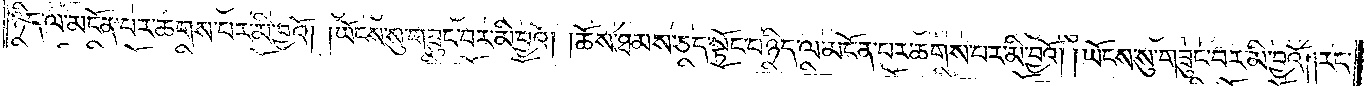ཉིད་ལ་མངོན་པར་ཆགས་པར་མི་བྱའོ། །ཡོངས་སུ་གཟུང་བར་མི་བྱའོ། །ཆོས་ཐམས་ཅད་སྟོང་པ་ཉིད་ལ་མངོན་པར་ཆགས་པར་མི་བྱའོ། །ཡོངས་སུ་གཟུང་བར་མི་བྱའོ། །རང་
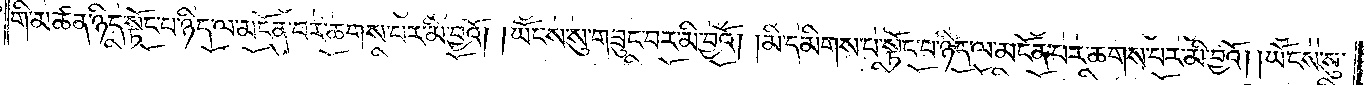གི་མཚན་ཉིད་སྟོང་པ་ཉིད་ལ་མངོན་པར་ཆགས་པར་མི་བྱའོ། །ཡོངས་སུ་གཟུང་བར་མི་བྱའོ། །མི་དམིགས་པ་སྟོང་པ་ཉིད་ལ་མངོན་པར་ཆགས་པར་མི་བྱའོ། །ཡོངས་སུ་
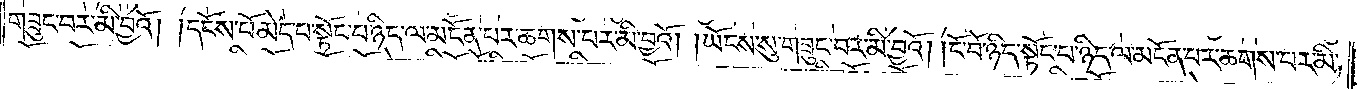གཟུང་བར་མི་བྱའོ། །དངོས་པོ་མེད་པ་སྟོང་པ་ཉིད་ལ་མངོན་པར་ཆགས་པར་མི་བྱའོ། །ཡོངས་སུ་གཟུང་བར་མི་བྱའོ། །ངོ་བོ་ཉིད་སྟོང་པ་ཉིད་ལ་མངོན་པར་ཆགས་པར་མི་
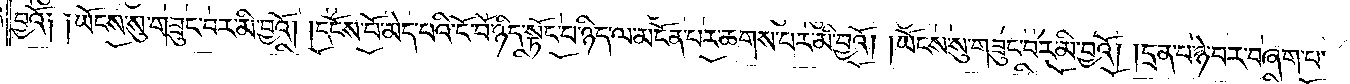བྱའོ༑ ༑ཡོངས་སུ་གཟུང་བར་མི་བྱའོ། །དངོས་པོ་མེད་པའི་ངོ་བོ་ཉིད་སྟོང་པ་ཉིད་ལ་མངོན་པར་ཆགས་པར་མི་བྱའོ། །ཡོངས་སུ་གཟུང་བར་མི་བྱའོ། །དྲན་པ་ཉེ་བར་བཞག་པ་
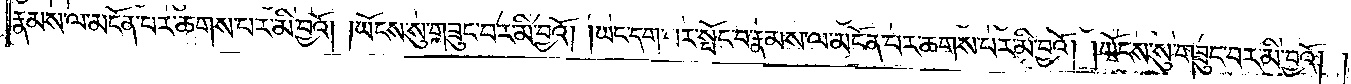རྣམས་ལ་མངོན་པར་ཆགས་པར་མི་བྱའོ། །ཡོངས་སུ་གཟུང་བར་མི་བྱའོ། །ཡང་དག་པར་སྤོང་བ་རྣམས་ལ་མངོན་པར་ཆགས་པར་མི་བྱའོ། །ཡོངས་སུ་གཟུང་བར་མི་བྱའོ། །
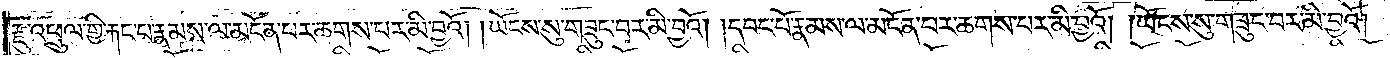རྫུ་འཕྲུལ་གྱི་རྐང་པ་རྣམས་ལ་མངོན་པར་ཆགས་པར་མི་བྱའོ། །ཡོངས་སུ་གཟུང་བར་མི་བྱའོ། །དབང་པོ་རྣམས་ལ་མངོན་པར་ཆགས་པར་མི་བྱའོ། །ཡོངས་སུ་གཟུང་བར་མི་བྱའོ། །
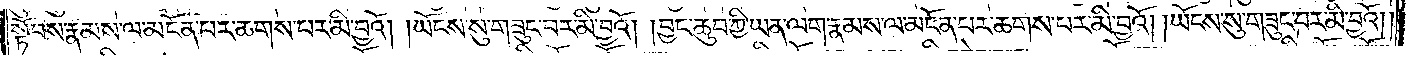སྟོབས་རྣམས་ལ་མངོན་པར་ཆགས་པར་མི་བྱའོ། །ཡོངས་སུ་གཟུང་བར་མི་བྱའོ། །བྱང་ཆུབ་ཀྱི་ཡན་ལག་རྣམས་ལ་མངོན་པར་ཆགས་པར་མི་བྱའོ། །ཡོངས་སུ་གཟུང་བར་མི་བྱའོ། །
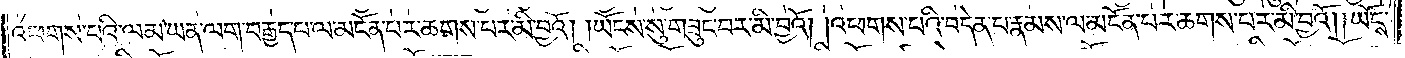འཕགས་པའི་ལམ་ཡན་ལག་བརྒྱད་པ་ལ་མངོན་པར་ཆགས་པར་མི་བྱའོ། །ཡོངས་སུ་གཟུང་བར་མི་བྱའོ། །འཕགས་པའི་བདེན་པ་རྣམས་ལ་མངོན་པར་ཆགས་པར་མི་བྱའོ། །ཡོངས་
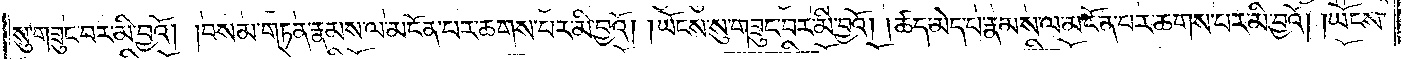སུ་གཟུང་བར་མི་བྱའོ། །བསམ་གཏན་རྣམས་ལ་མངོན་པར་ཆགས་པར་མི་བྱའོ། །ཡོངས་སུ་གཟུང་བར་མི་བྱའོ། །ཚད་མེད་པ་རྣམས་ལ་མངོན་པར་ཆགས་པར་མི་བྱའོ༎ ཡོངས་
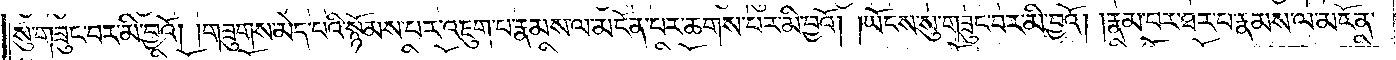སུ་གཟུང་བར་མི་བྱའོ། །གཟུགས་མེད་པའི་སྙོམས་པར་འཇུག་པ་རྣམས་ལ་མངོན་པར་ཆགས་པར་མི་བྱའོ། །ཡོངས་སུ་གཟུང་བར་མི་བྱའོ། རྣམ་པར་ཐར་པ་རྣམས་ལ་མངོན་
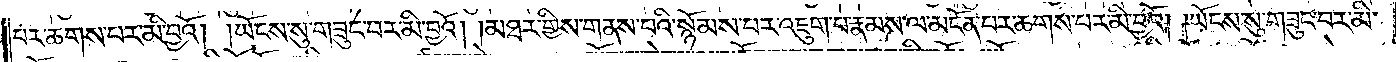པར་ཆགས་པར་མི་བྱའོ། །ཡོངས་སུ་གཟུང་བར་མི་བྱའོ། །མཐར་གྱིས་གནས་པའི་སྙོམས་པར་འཇུག་པ་རྣམས་ལ་མངོན་པར་ཆགས་པར་མི་བྱའོ། །ཡོངས་སུ་གཟུང་བར་མི་
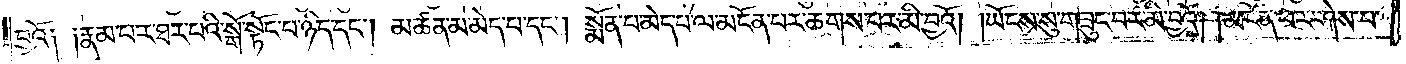བྱའོ༑ ༑རྣམ་པར་ཐར་པའི་སྒོ་སྟོང་པ་ཉིད་དང༌། མཚན་མ་མེད་པ་དང༌། སྨོན་པ་མེད་པ་ལ་མངོན་པར་ཆགས་པར་མི་བྱའོ། །ཡོངས་སུ་གཟུང་བར་མི་བྱའོ། །མངོན་པར་ཤེས་པ་
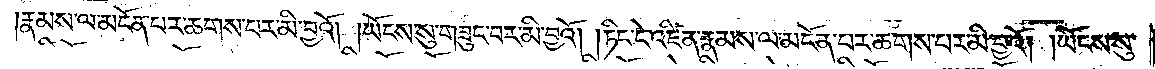རྣམས་ལ་མངོན་པར་ཆགས་པར་མི་བྱའོ། །ཡོངས་སུ་གཟུང་བར་མི་བྱའོ། །ཏིང་ངེ་འཛིན་རྣམས་ལ་མངོན་པར་ཆགས་པར་མི་བྱའོ། །ཡོངས་སུ་
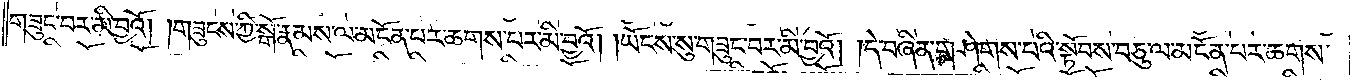གཟུང་བར་མི་བྱའོ། །གཟུངས་ཀྱི་སྒོ་རྣམས་ལ་མངོན་པར་ཆགས་པར་མི་བྱའོ། །ཡོངས་སུ་གཟུང་བར་མི་བྱའོ། །དེ་བཞིན་གཤེགས་པའི་སྟོབས་བཅུ་ལ་མངོན་པར་ཆགས་
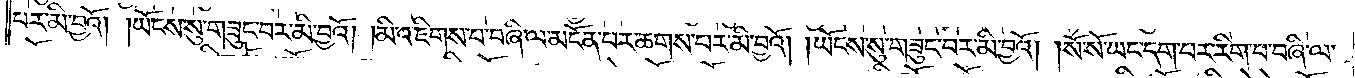པར་མི་བྱའོ། །ཡོངས་སུ་གཟུང་བར་མི་བྱའོ། །མི་འཇིགས་པ་བཞི་ལ་མངོན་པར་ཆགས་པར་མི་བྱའོ། །ཡོངས་སུ་གཟུང་བར་མི་བྱའོ། །སོ་སོ་ཡང་དག་པར་རིག་པ་བཞི་ལ་
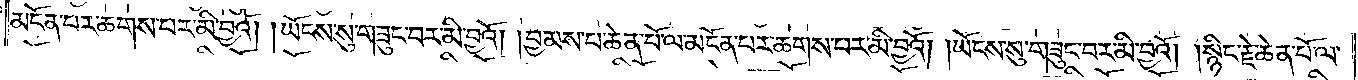མངོན་པར་ཆགས་པར་མི་བྱའོ། །ཡོངས་སུ་གཟུང་བར་མི་བྱའོ། །བྱམས་པ་ཆེན་པོ་ལ་མངོན་པར་ཆགས་པར་མི་བྱའོ། །ཡོངས་སུ་གཟུང་བར་མི་བྱའོ། །སྙིང་རྗེ་ཆེན་པོ་ལ་
